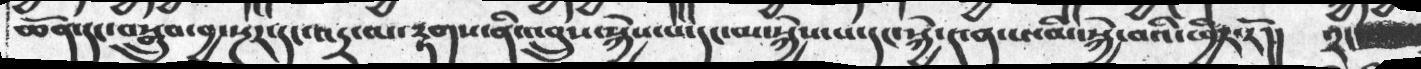ཆོན་དང་བསྒྲུབ་བྱ་སྔར་དང་འདྲ་ལ་རྟགས་ནི་འབྲུས་སྐྱེས་པ་དང་མ་སྐྱེས་པ་དང་སྐྱེ་༤ན་པ་མི་སྐྱེ་བའི་ཕྱིར་རོ།།   ༢་
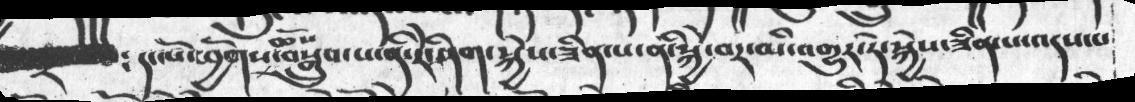༴ དང་པོ་ཕྱོགས་ཆོས་བསྒྲུབ་པ་ནི་རེ་ཤིག་སྐྱེས་ཟིན་པ་ནི་སྐྱེ་བར་མི་འགྱུར་ཏེ་སྐྱེས་ཟིན་པ་འདས་པ
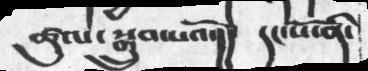ཚུལ་སྒྲུབ་པའོ་།།    དང་པོ་ནི་
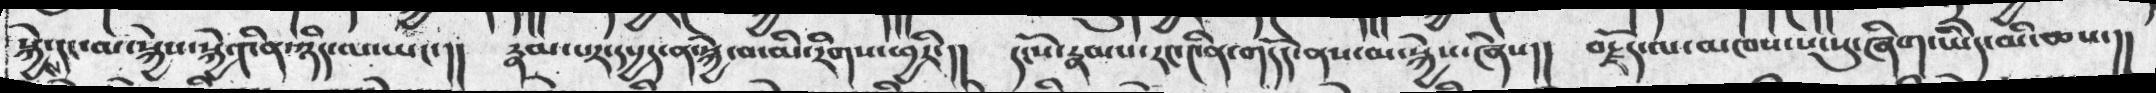སྐྱེས་དང་མ་སྐྱེས་སྐྱེ་༤ིན་ཉིད་ལ་ཡང་།།  རྣམ་པར་དཔྱད་ན་སྐྱེ་བ་མི་རིགས་ཕྱིར་།།  དངོས་རྣམ་པ་རང་༤ིན་གདོད་ནས་མ་སྐྱེས་ཞེས།།  བརྗོད་ལ་མཁས་པ་སུ་ཞིག་ཡིད་མི་ཆས་།།
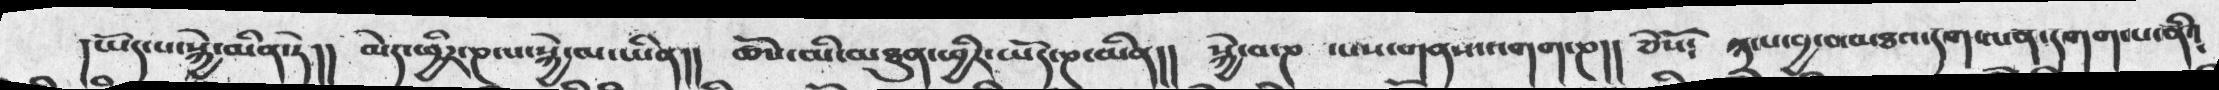། ཡོད་པ་སྐྱེ་མིན་ཏེ།།   མེད་ཕྱིར་ཎ་པ་སྐྱེ་མ་ཡིན།།  ཆོས་མི་མཐུན་ཕྱིར་ཡོད་ཎ་མིན།།  སྐྱེ་བ་ཎ་པས་གནས་འགག་ཎ།།  ཅེསོ༴  ༣་པ་བྱ་བ་མཐའ་དག་ལན་དགག་པ་ནི༴
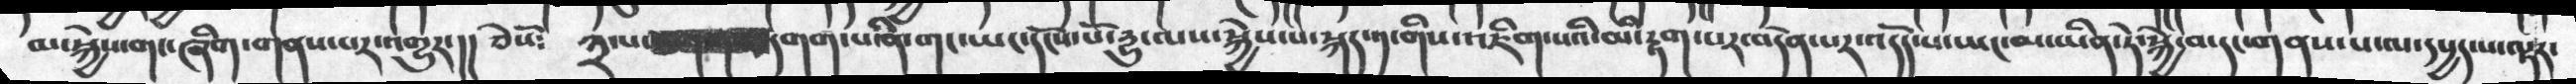མ་སྐྱེས་གང་ཞིག་གནས་པར་འགྱུར་།།  ཅེསོ༴   ༣་པ་  དགག་པ་ནི་གང་ཡང་དངོས་པོ་དྱུ་ལས་སྐྱེས་པ་སྐད་༡་གིས་འཇིག་པའི་མི་རྟག་པར་བདེན་པར་འདོད་པ་ཡང་མ་ཡིན་ཏེ་སྐྱེ་བ་དང་གནས་པ་ལ་དཔྱད་པ་ལྟར་
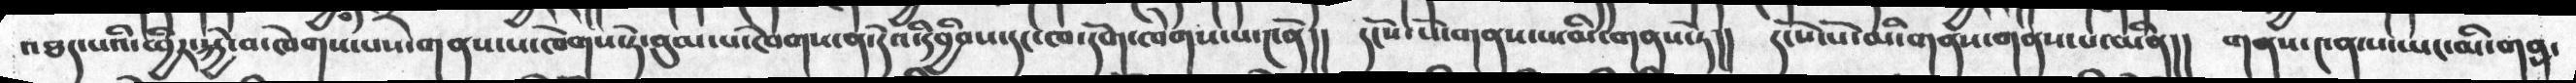འཐད་པའི་ཕྱིར་སྐྱེ་བ་ཁེགས་པས་གནས་པ་ཁེགས་ཏེ་བུམ་པ་ཁེགས་ན་དེའི་དབྱིབས་དང་ཁ་དོག་ཁེགས་པ་༤ནོ།།   དངོས་པོ་གནས་པ་མི་གནས་ཏེ།།  དངོས་པོ་མི་གནས་གནས་པ་ཡིན།།  གནས་༤ན་པ་ཡང་མི་གནས་
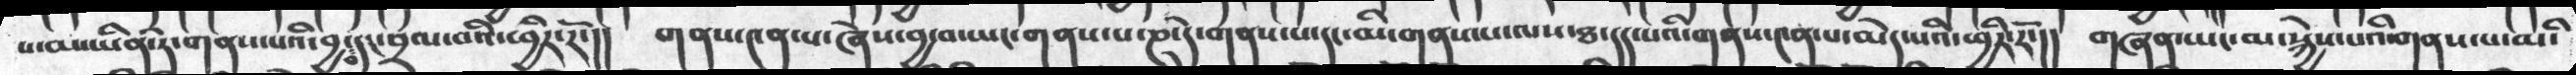པ་མ་ཡིན་ཏེ་གནས་པའི་བྱ་བ་དང་བྲལ་བའི་ཕྱིར་རོ་།།   གནས་༤ན་པ་ཞེས་བྱ་བ་ཡང་གནས་པ་ཎ་དེ་གནས་པ་དང་མི་གནས་པ་ལས་ཐ་དད་པའི་གནས་༤ན་པ་མེད་པའི་ཕྱིར་རོ་།།  གཞན་ཡང་མ་སྐྱེས་པའི་གནས་པ་མི་
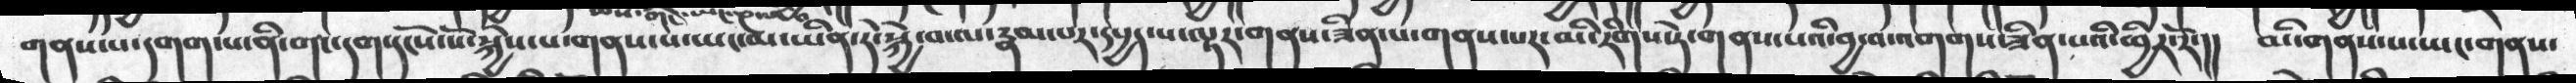གནས་པ་དགག་པ་ནི་གང་དག་དངོས་པོ་སྐྱེས་པ་གནས་པ་ཡང་མ་ཡིན་ཏེ་སྐྱེ་བ་ལ་རྣམ་པར་དཔྱད་པ་ལྟར་གནས་ཟིན་པ་གནས་པར་མི་རིགས་ཏེ་གནས་པའི་བྱ་བ་འགགས་ཟིན་པའི་ཕྱིར་རོ་།།  མི་གནས་པ་ཡང་གནས་
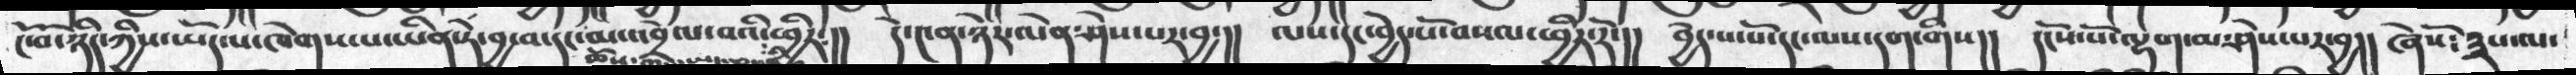ངོ་བོ་ཉིད་ཀྱིས་ཡོད་པ་ཁེགས་པ་ཡིན་ཏེ་བྱ་བ་དང་མ་འབྲེལ་བའི་ཕྱིར།།   དེ་༤ན་ཉེར་ལེན་ཤེས་པར་བྱ།།  ལས་དང་བྱེད་པོ་བསལ་ཕྱིར་རོ་།།  བྱེད་པ་པོ་དང་ལས་དག་གིས།།   དངོས་པོ་ལྷག་མ་ཤེས་པར་བྱ།།   ཞེསོ༴༣ས་ལ་
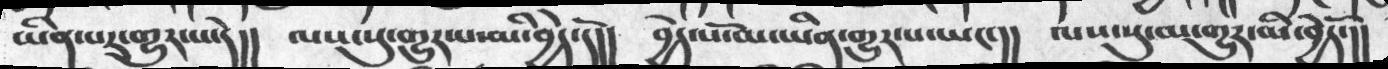ཡིན་པར་གྱུར་པ་དེ།།   ལས་སུ་གྱུར་པ་མི་བྱེད་དོ།།   བྱེད་པོ་མ་ཡིན་གྱུར་པ་ཡང་།།  ལས་སུ་མ་གྱུར་མི་བྱེདོ་།།
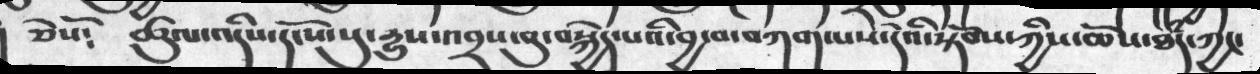ཅེསོ༴   ཚུལ་འདིས་དངོས་སུ་དྱུས་འབྲས་བུ་བསྐྱེད་པའི་བྱ་བ་བཀག་པས་དེའི་སྟོབས་ཀྱིས་ཆོས་ཐཾད་ཀྱང་
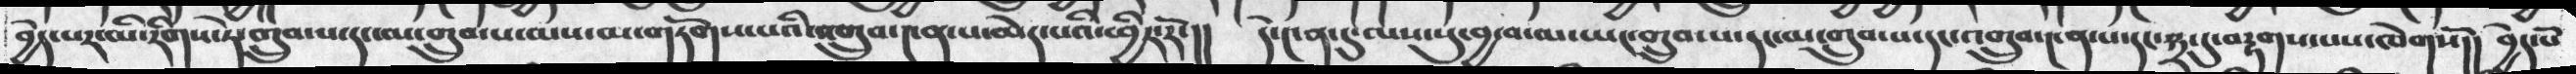བྱེད་པར་མི་རིགས་ཏེ་གྲུབ་པ་དང་མ་གྲུབ་པ་མས་མ་གཏོགས་པའི་འགྲུབ་༤ན་པ་མེད་པའི་ཕྱིར་རོ་།།   དེ་༤ན་དུ་ལས་སུ་བྱ་བ་ལ་ཡང་གྲུབ་པ་དང་མ་གྲུབ་པ་དང་འགྲུབ་༤ན་པ་དང་༣་དུ་བརྟགས་པས་ཁེགསོ།།   བྱེད་པོ
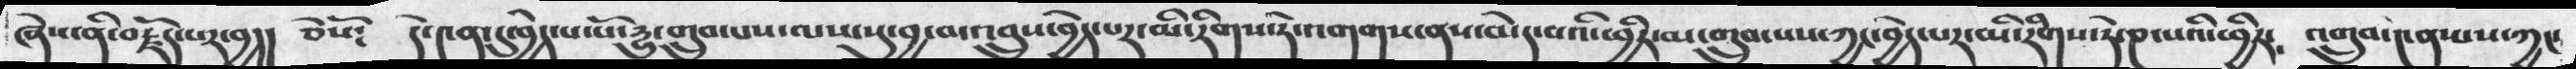ཞེས་ནི་བརྗོད་པར་བྱ།།   ཅེསོ༴  དེ་༤ན་དུ་བྱེད་པ་པོ་དྱུ་གྲུབ་པས་ལས་སུ་བྱ་བ་འབྲུས་བྱེད་པར་མི་རིགས་ཏེ་འགགས་ནས་མེད་པའི་ཕྱིར་མ་གྲུབ་པས་ཀྱང་བྱེད་པར་མི་རིགས་ཏེ་ཎ་པའི་ཕྱིར༴   འགྲུབ་༤ན་པས་ཀྱང་
